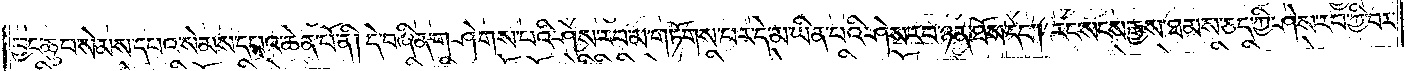བྱང་ཆུབ་སེམས་དཔའ་སེམས་དཔའ་ཆེན་པོ་ནི། དེ་བཞིན་གཤེགས་པའི་ཤེས་རབ་མ་གཏོགས་པར་དེ་མ་ཡིན་པའི་ཤེས་རབ་ཉན་ཐོས་དང༌། རང་སངས་རྒྱས་ཐམས་ཅད་ཀྱི་ཤེས་རབ་ཀྱི་བར་
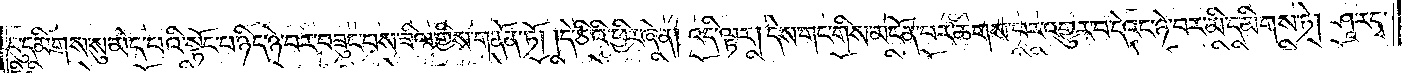དུ་དམིགས་སུ་མེད་པའི་སྟོང་པ་ཉིད་ཉེ་བར་བཟུང་བས་ཟིལ་གྱིས་གནོན་ཏོ། །དེ་ཅིའི་ཕྱིར་ཞེ་ན། འདི་ལྟར། དེས་གང་གིས་མངོན་པར་ཆགས་པར་འགྱུར་བ་དེའང་ཉེ་བར་མི་དམིགས་ཏེ། ཤཱ་ར་དྭ་
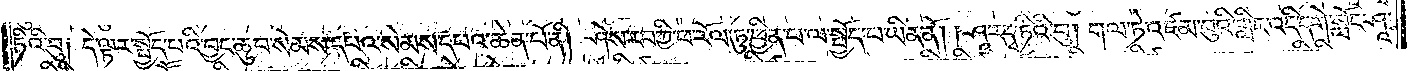ཏིའི་བུ༑ དེ་ལྟར་སྤྱོད་པའི་བྱང་ཆུབ་སེམས་དཔའ་སེམས་དཔའ་ཆེན་པོ་ནི། ཤེས་རབ་ཀྱི་ཕ་རོལ་ཏུ་ཕྱིན་པ་ལ་སྤྱོད་པ་ཡིན་ནོ། །ཤཱ་ར་དྭ་ཏིའི་བུ། གལ་ཏེ་འཛམ་བུའི་གླིང་འདི་དགེ་སློང་ཤཱ་
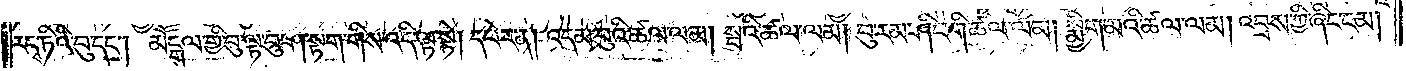ར་དྭ་ཏིའི་བུ་དང༌། མཽདྒལ་གྱི་བུ་ལྟ་བུ་ཤ་སྟག་གིས་འདི་ལྟ་སྟེ། དཔེར་ན། འདམ་བུའི་ཚལ་ལམ། སྦའི་ཚལ་ལམ། བུ་རམ་ཤིང་གི་ཚལ་ལམ། སྨྱིག་མའི་ཚལ་ལམ། འབྲས་ཀྱི་ཞིང་ངམ།
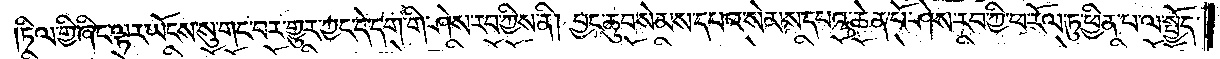ཏིལ་གྱི་ཞིང་ལྟར་ཡོངས་སུ་གང་བར་གྱུར་ཀྱང་དེ་དག་གི་ཤེས་རབ་ཀྱིས་ནི། བྱང་ཆུབ་སེམས་དཔའ་སེམས་དཔའ་ཆེན་པོ་ཤེས་རབ་ཀྱི་ཕ་རོལ་ཏུ་ཕྱིན་པ་ལ་སྤྱོད་
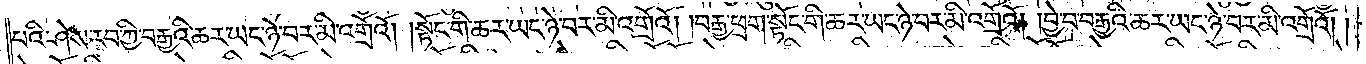པའི་ཤེས་རབ་ཀྱི་བརྒྱའི་ཆར་ཡང་ཉེ་བར་མི་འགྲོའོ། །སྟོང་གི་ཆར་ཡང་ཉེ་བར་མི་འགྲོའོ། །བརྒྱ་ཕྲག་སྟོང་གི་ཆར་ཡང་ཉེ་བར་མི་འགྲོའོ། །བྱེ་བ་བརྒྱའི་ཆར་ཡང་ཉེ་བར་མི་འགྲོའོ། །
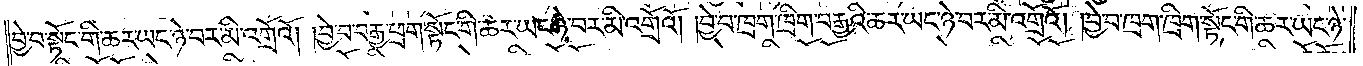བྱེ་བ་སྟོང་གི་ཆར་ཡང་ཉེ་བར་མི་འགྲོའོ། །བྱེ་བ་བརྒྱ་ཕྲག་སྟོང་གི་ཆར་ཡང་ཉེ་བར་མི་འགྲོའོ། །བྱེ་བ་ཁྲག་ཁྲིག་བརྒྱའི་ཆར་ཡང་ཉེ་བར་མི་འགྲོའོ། །བྱེ་བ་ཁྲག་ཁྲིག་སྟོང་གི་ཆར་ཡང་ཉེ་
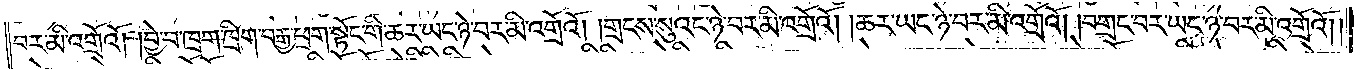བར་མི་འགྲོའོ། །བྱེ་བ་ཁྲག་ཁྲིག་བརྒྱ་ཕྲག་སྟོང་གི་ཆར་ཡང་ཉེ་བར་མི་འགྲོའོ། །གྲངས་སུའང་ཉེ་བར་མི་འགྲོའོ། །ཆར་ཡང་ཉེ་བར་མི་འགྲོའོ། །བགྲང་བར་ཡང་ཉེ་བར་མི་འགྲོའོ༎
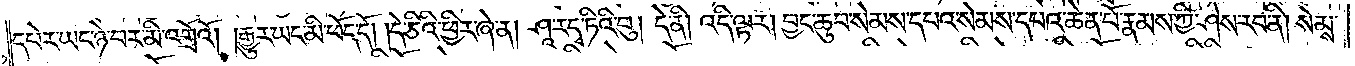དཔེར་ཡང་ཉེ་བར་མི་འགྲོའོ། །རྒྱུར་ཡང་མི་ཕོད་དོ། །དེ་ཅིའི་ཕྱིར་ཞེ་ན། ཤཱ་ར་དྭ་ཏིའི་བུ། དེ་ནི། འདི་ལྟར། བྱང་ཆུབ་སེམས་དཔའ་སེམས་དཔའ་ཆེན་པོ་རྣམས་ཀྱི་ཤེས་རབ་ནི། སེམས་
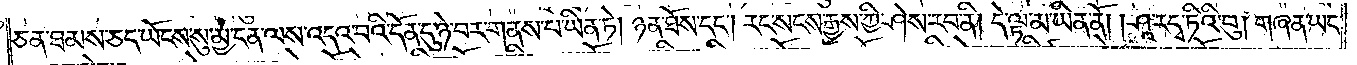ཅན་ཐམས་ཅད་ཡོངས་སུ་མྱ་ངན་ལས་འདའ་བའི་དོན་དུ་ཉེ་བར་གནས་པ་ཡིན་ཏེ། ཉན་ཐོས་དང༌། རང་སངས་རྒྱས་ཀྱི་ཤེས་རབ་ནི། དེ་ལྟ་མ་ཡིན་ནོ། །ཤཱ་ར་དྭ་ཏིའི་བུ། གཞན་ཡང་
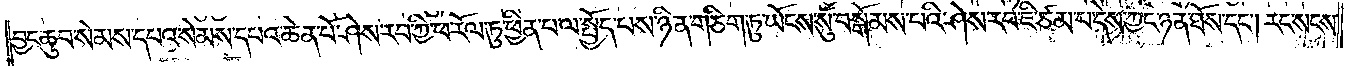བྱང་ཆུབ་སེམས་དཔའ་སེམས་དཔའ་ཆེན་པོ་ཤེས་རབ་ཀྱི་ཕ་རོལ་ཏུ་ཕྱིན་པ་ལ་སྤྱོད་པས་ཉིན་གཅིག་ཏུ་ཡོངས་སུ་བསྒོམས་པའི་ཤེས་རབ་ཇི་ཙམ་པ་དེས་ཀྱང་ཉན་ཐོས་དང༌། རང་སངས་
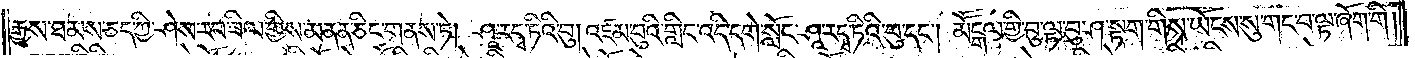རྒྱས་ཐམས་ཅད་ཀྱི་ཤེས་རབ་ཟིལ་གྱིས་མནན་ཅིང་གནས་ཏེ། ཤཱ་རདྭ་ཏིའི་བུ། འཛམ་བུའི་གླིང་འདི་དགེ་སློང་ཤཱ་རདྭ་ཏིའི་བུ་དང༌། མཽདྒལ་གྱི་བུ་ལྟ་བུ་ཤ་སྟག་གིས་ཡོངས་སུ་གང་བ་ལྟ་ཞོག་གི།
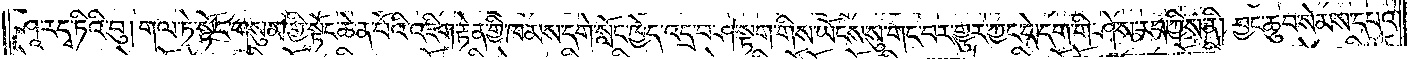ཤཱ་ར་དྭ་ཏིའི་བུ། གལ་ཏེ་སྟོང་གསུམ་གྱི་སྟོང་ཆེན་པོའི་འཇིག་རྟེན་གྱི་ཁམས་དགེ་སློང་ཁྱེད་འདྲ་བ་ཤ་སྟག་གིས་ཡོངས་སུ་གང་བར་གྱུར་ཀྱང་དེ་དག་གི་ཤེས་རབ་ཀྱིས་ནི། བྱང་ཆུབ་སེམས་དཔའ་
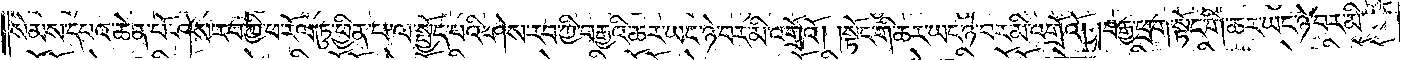སེམས་དཔའ་ཆེན་པོ་ཤེས་རབ་ཀྱི་ཕ་རོལ་ཏུ་ཕྱིན་པ་ལ་སྤྱོད་པའི་ཤེས་རབ་ཀྱི་བརྒྱའི་ཆར་ཡང་ཉེ་བར་མི་འགྲོའོ། །སྟོང་གི་ཆར་ཡང་ཉེ་བར་མི་འགྲོའོ། །བརྒྱ་ཕྲག་སྟོང་གི་ཆར་ཡང་ཉེ་བར་མི་
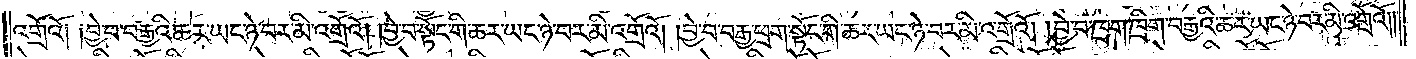འགྲོའོ། །བྱེ་བ་བརྒྱའི་ཆར་ཡང་ཉེ་བར་མི་འགྲོའོ། །བྱེ་བ་སྟོང་གི་ཆར་ཡང་ཉེ་བར་མི་འགྲོའོ། །བྱེ་བ་བརྒྱ་ཕྲག་སྟོང་གི་ཆར་ཡང་ཉེ་བར་མི་འགྲོའོ། །བྱེ་བ་ཁྲག་ཁྲིག་བརྒྱའི་ཆར་ཡང་ཉེ་བར་མི་འགྲོའོ༎
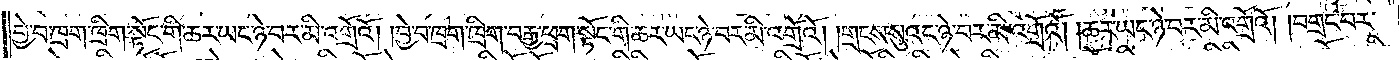བྱེ་བ་ཁྲག་ཁྲིག་སྟོང་གི་ཆར་ཡང་ཉེ་བར་མི་འགྲོའོ། །བྱེ་བ་ཁྲག་ཁྲིག་བརྒྱ་ཕྲག་སྟོང་གི་ཆར་ཡང་ཉེ་བར་མི་འགྲོའོ། །གྲངས་སུའང་ཉེ་བར་མི་འགྲོའོ། །ཆར་ཡང་ཉེ་བར་མི་འགྲོའོ། །བགྲང་བར་
